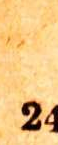24
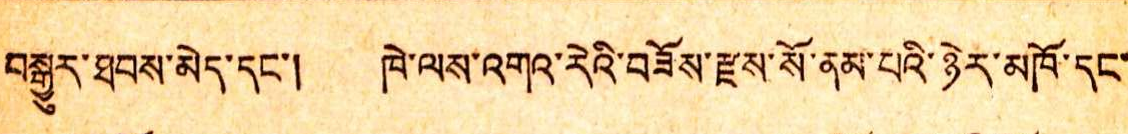བསྒྱུར་ཐབས་མེད་དང་། ཁེ་ལས་འགའ་རེའི་བཟོས་རྫས་སོ་ནམ་པའི་ཉེར་མཁོ་དང་
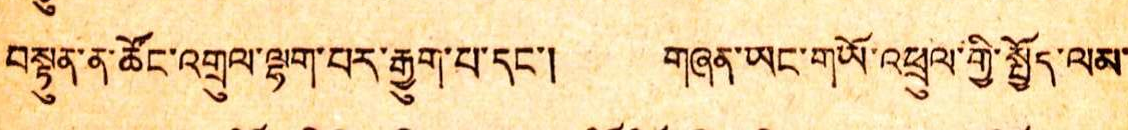བསྟུན་ན་ཚོང་འགྲུལ་ལྷག་པར་རྒྱུག་པ་དང་། གཞན་ཡང་གཡོ་འཕྲུལ་གྱི་སྤྱོད་ལམ་
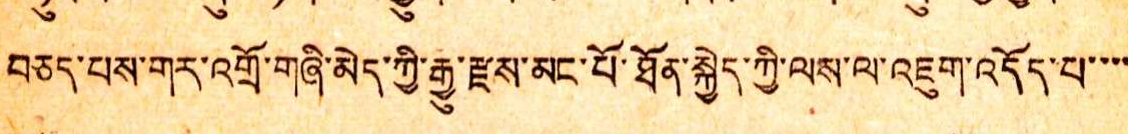བཅད་པས་གར་འགྲོ་གཞི་མེད་ཀྱི་རྒྱུ་རྫས་མང་པོ་ཐོན་སྐྱེད་ཀྱི་ལས་ལ་འཇུག་འདོད་པ་་་་
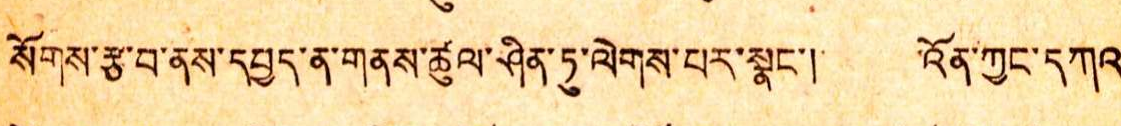སོགས་རྩ་བ་ནས་དཔྱད་ན་གནས་ཚུལ་ཤིན་ཏུ་ལེགས་པར་སྣང་། འོན་ཀྱང་དཀའ་
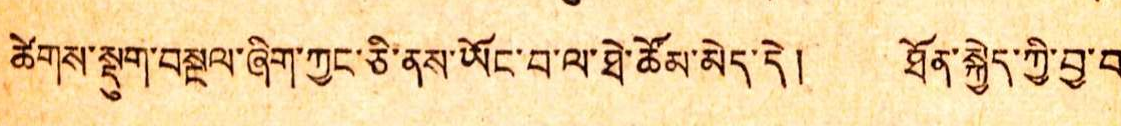ཚེགས་སྡུག་བསྔལ་ཞིག་ཀྱང་ཅི་ནས་ཡོང་བ་ལ་ཐེ་ཚོམ་མེད་དེ། ཐོན་སྐྱེད་ཀྱི་བྱ་བ་
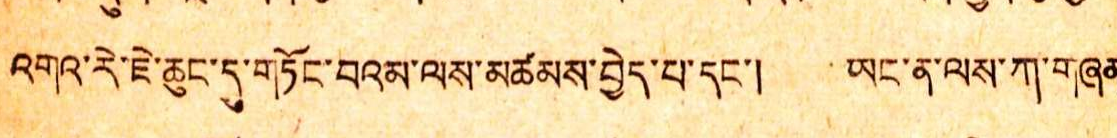འགའ་རེ་ཇེ་ཆུང་དུ་གཏོང་བའམ་ལས་མཚམས་བྱེད་པ་དང་། ཡང་ན་ལས་ཀ་གཞན་
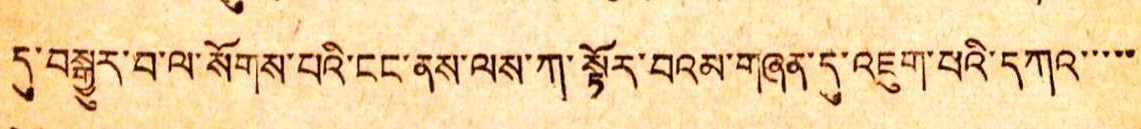དུ་བསྒྱུར་བ་ལ་སོགས་པའི་ངང་ནས་ལས་ཀ་སྟོར་བའམ་གཞན་དུ་འཇུག་པའི་དཀའ་་་་་
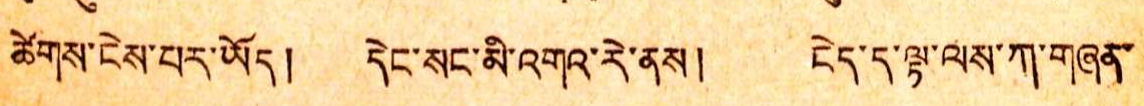ཚེགས་ངེས་བར་ཡོད། དེང་སང་མི་འགའ་རེ་ནས། ངེད་ད་ལྟ་ལས་ཀ་གཞན་
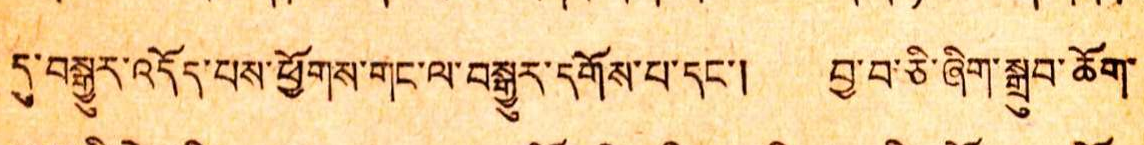དུ་བསྒྱུར་འདོད་པས་ཕྱོགས་གང་ལ་བསྒྱུར་དགོས་པ་དང་། བྱ་བ་ཅི་ཞིག་སྒྲུབ་ཆོག་
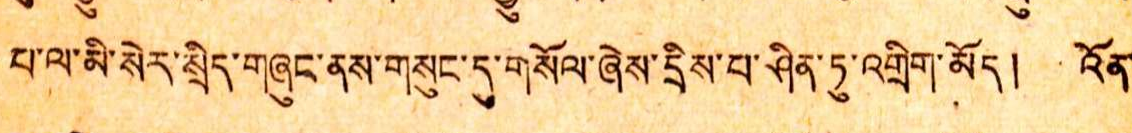པ་ལ་མི་སེར་སྲིད་གཞུང་ནས་གསུང་དུ་གསོལ་ཞེས་དྲིས་པ་ཤིན་ཏུ་འགྲིག་མོད། འོན་
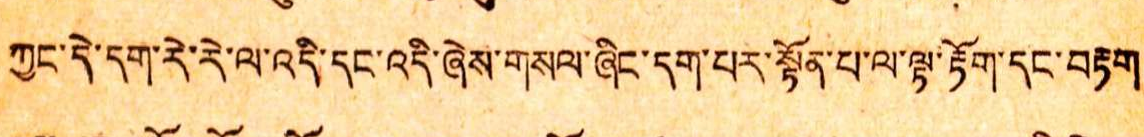ཀྱང་དེ་དག་རེ་རེ་ལ་འདི་དང་འདི་ཞེས་གསལ་ཞིང་དག་པར་སྟོན་པ་ལ་ལྟ་རྟོག་དང་བརྟག
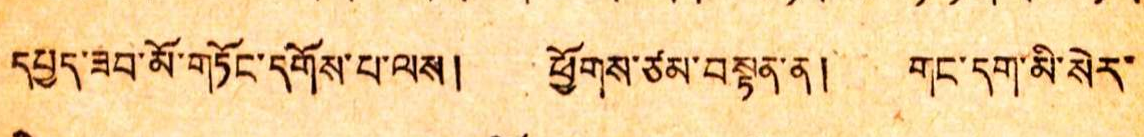དཔད་ཟབ་མོ་གཏོང་དགོས་པ་ལས། ཕྱོགས་ཙམ་བསྟན་ན། གང་དག་མི་སེར་
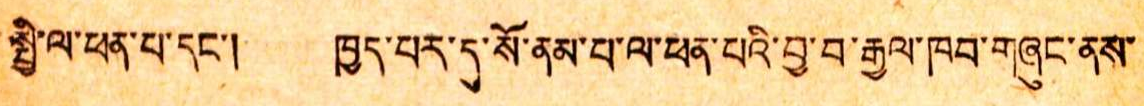སྤྱི་ལ་ཕན་པ་དང་། ཁྱད་པར་དུ་སོ་ནམ་པ་ལ་ཕན་པའི་བྱ་བ་རྒྱལ་ཁབ་གཞུང་ནས་
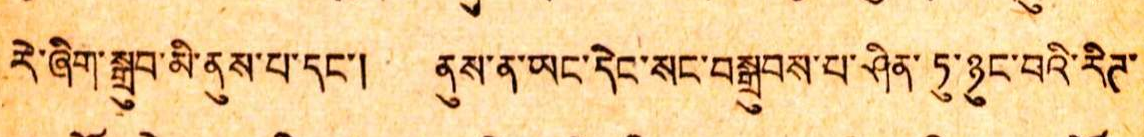རེ་ཞིག་སྒྲུབ་མི་ནུས་པ་དང་། ནུས་ན་ཡང་དེང་སང་བསྒྲུབས་པ་ཤིན་ཏུ་ཉུང་བའི་རིཊ་
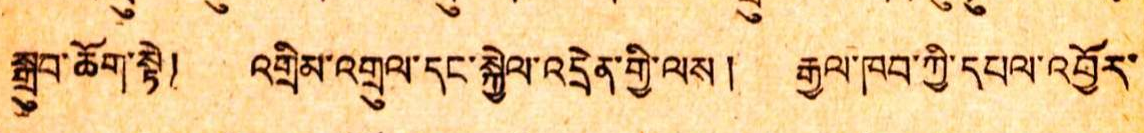སྒྲུབ་ཆོག་སྟེ། འགྲིམ་འགྲུལ་དང་སྐྱེལ་འདྲེན་གྱི་ལས། རྒྱལ་ཁབ་ཀྱི་དཔལ་འབྱོར་
